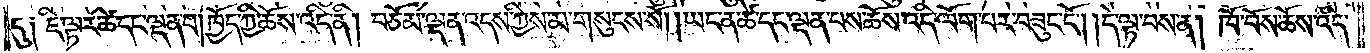དུ༑ ཇི་ལྟར་ཚེ་དང་ལྡན་པ། ཁྱོད་ཀྱི་ཆོས་འདི་ནི། བཅོམ་ལྡན་འདས་ཀྱིས་མ་གསུངས་སོ། །ཡང་ན་ཚེ་དང་ལྡན་པས་ཆོས་འདི་ལོག་པར་བཟུང་ངོ༌། །དེ་ལྟ་བས་ན། ཁོ་བོས་ཆོས་འདི་
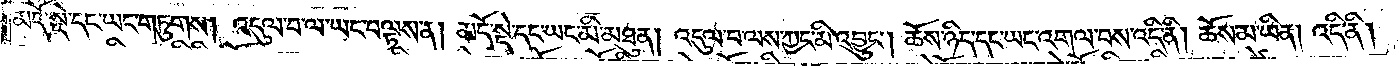མདོ་སྡེ་དང་ཡང་གཏུགས། འདུལ་བ་ལ་ཡང་བལྟས་ན། མདོ་སྡེ་དང་ཡང་མི་མཐུན། འདུལ་བ་ལས་ཀྱང་མི་འབྱུང༌། ཆོས་ཉིད་དང་ཡང་འགལ་བས་འདི་ནི། ཆོས་མ་ཡིན། འདི་ནི།
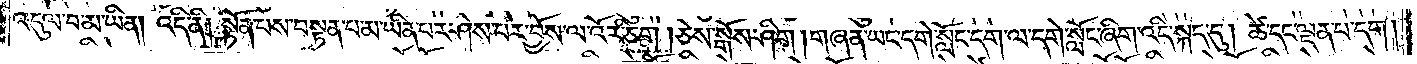འདུལ་བ་མ་ཡིན། འདི་ནི། སྟོན་པས་བསྟན་པ་མ་ཡིན་པར་ཤེས་པར་བྱོས་ལ་འོར་ཅིག །ཅེས་སྒོས་ཤིག །གཞན་ཡང་དགེ་སློང་དག་ལ་དགེ་སློང་ཞིག་འདི་སྐད་དུ། ཚེ་དང་ལྡན་པ་དག།
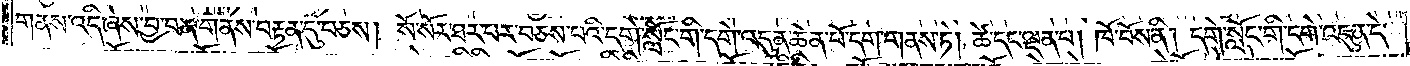གནས་འདི་ཞེས་བྱ་བ་ན་གནས་བརྟན་དུ་བཅས། སོ་སོར་ཐར་པར་བཅས་པའི་དགེ་སློང་གི་དགེ་འདུན་ཆེན་པོ་དག་གནས་ཏེ། ཚེ་དང་ལྡན་པ། ཁོ་བོས་ནི། དགེ་སློང་གི་དགེ་འདུན་དེ་
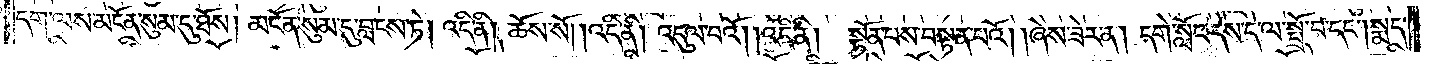དག་ལས་མངོན་སུམ་དུ་ཐོས། མངོན་སུམ་དུ་བླངས་ཏེ། འདི་ནི། ཆོས་སོ། །འདི་ནི། འདུལ་བའོ། །འདི་ནི། སྟོན་པས་བསྟན་པའོ། །ཞེས་ཟེར་ན། དགེ་སློང་དེས་དེ་ལ་སྤྲོ་བ་དང༌། སྨད་
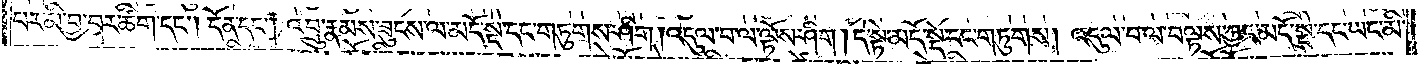པར་མི་བྱ་བར་ཚིག་དང༌། དོན་དང༌། འབྲུ་རྣམས་ཟུངས་ལ་མདོ་སྡེ་དང་གཏུགས་ཤིག །འདུལ་བ་ལ་ལྟོས་ཤིག། དེ་སྟེ་མདོ་སྡེ་དང་གཏུགས། འདུལ་བ་ལ་བལྟས་ཀྱང་མདོ་སྡེ་དང་ཡང་མི་
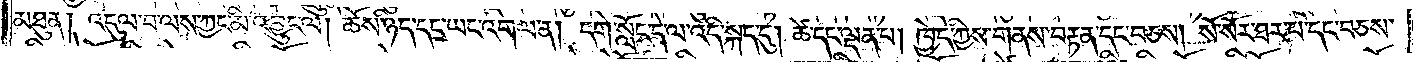མཐུན། འདུལ་བ་ལས་ཀྱང་མི་འབྱུང་ལ། ཆོས་ཉིད་དང་ཡང་འགལ་ན། དགེ་སློང་དེ་ལ་འདི་སྐད་དུ། ཚེ་དང་ལྡན་པ། ཁྱེད་ཀྱིས་གནས་བརྟན་དང་བཅས། སོ་སོར་ཐར་པ་དང་བཅས་
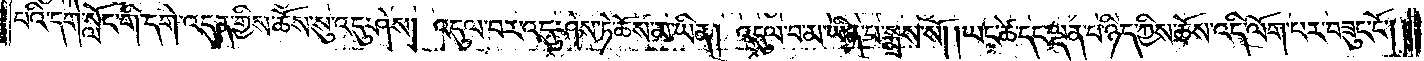པའི་དགེ་སློང་གི་དགེ་འདུན་གྱིས་ཆོས་སུ་འདུ་ཤེས། འདུལ་བར་འདུ་ཤེས་ཏེ་ཆོས་མ་ཡིན། འདུལ་བ་མ་ཡིན་པ་སྨྲས་སོ། །ཡང་ཚེ་དང་ལྡན་པ་ཉིད་ཀྱིས་ཆོས་འདི་ལོག་པར་བཟུང་ངོ༌། །
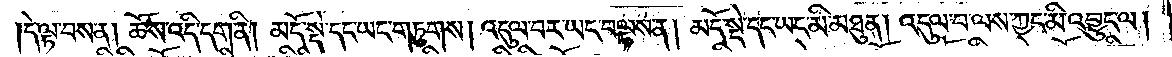དེ་ལྟ་བས་ན། ཆོས་འདི་དག་ནི། མདོ་སྡེ་དང་ཡང་གཏུགས། འདུལ་བར་ཡང་བལྟས་ན། མདོ་སྡེ་དང་ཡང་མི་མཐུན། འདུལ་བ་ལས་ཀྱང་མི་འབྱུང་ལ།
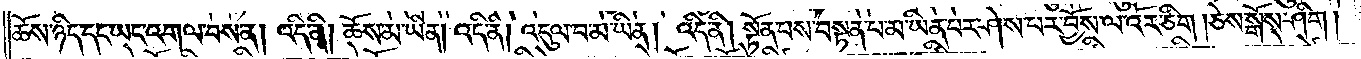ཆོས་ཉིད་དང་ཡང་འགལ་བས་ན། འདི་ནི། ཆོས་མ་ཡིན། འདི་ནི། འདུལ་བ་མ་ཡིན། འདི་ནི། སྟོན་པས་བསྟན་པས་བསྟན་པ་མ་ཡིན་པར་ཤེས་པར་བྱོས་ལ་འོར་ཅིག །ཅེས་སྒོས་ཤིག།
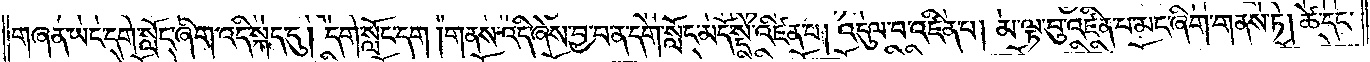གཞན་ཡང་དགེ་སློང་ཞིག་འདི་སྐད་དུ། དགེ་སློང་དག །གནས་འདི་ཞེས་བྱ་བ་ན་དགེ་སློང་མདོ་སྡེ་འཛིན་པ། འདུལ་བ་འཛིན་པ། མ་ལྟ་བུ་འཛིན་པ་མང་ཞིག་གནས་ཏེ། ཚེ་དང་
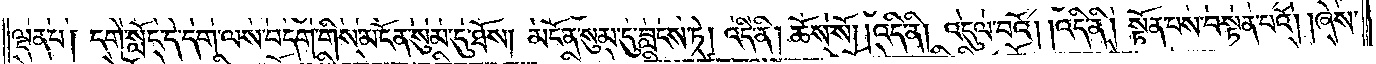ལྡན་པ། དགེ་སློང་དེ་དག་ལས་བདག་གིས་མངོན་སུམ་དུ་ཐོས། མངོན་སུམ་དུ་བླངས་ཏེ། འདི་ནི། ཆོས་སོ། །འདི་ནི། འདུལ་བའོ། །འདི་ནི། སྟོན་པས་བསྟན་པའོ། །ཞེས་
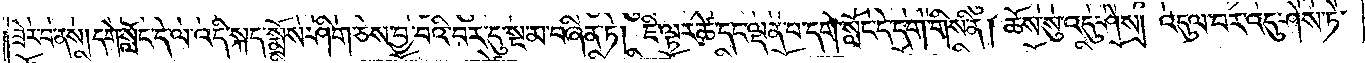ཟེར་བ་ནས། དགེ་སློང་དེ་ལ་འདི་སྐད་སྨྲོས་ཤིག་ཅེས་བྱ་བའི་བར་དུ་སྔ་མ་བཞིན་ཏེ། ཇི་ལྟར་ཚེ་དང་ལྡན་པ་དགེ་སློང་དེ་དག་གིས་ནི། ཆོས་སུ་འདུ་ཤེས། འདུལ་བར་འདུ་ཤེས་ཏེ་
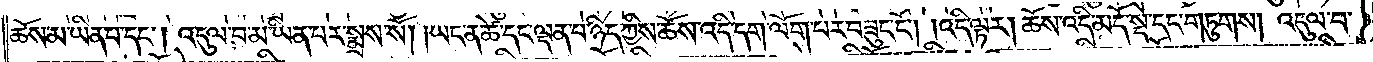ཆོས་མ་ཡིན་པ་དང༌། འདུལ་བ་མ་ཡིན་པར་སྨྲས་སོ། །ཡང་ན་ཚེ་དང་ལྡན་པ་ཉིད་ཀྱིས་ཆོས་འདི་དག་ལོག་པར་བཟུང་ངོ༌། །འདི་ལྟར། ཆོས་འདི་མདོ་སྡེ་དང་གཏུགས། འདུལ་བ་
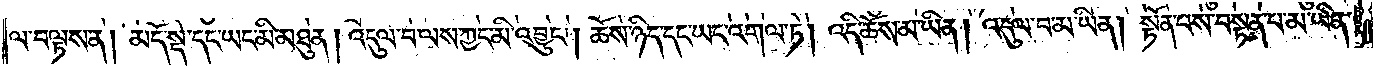ལ་བལྟས་ན། མདོ་སྡེ་དང་ཡང་མི་མཐུན། འདུལ་བ་ལས་ཀྱང་མི་འབྱུང༌། ཆོས་ཉིད་དང་ཡང་འགལ་ཏེ། འདི་ཆོས་མ་ཡིན། འདུལ་བ་མ་ཡིན། སྟོན་པས་བསྟན་པ་མ་ཡིན་
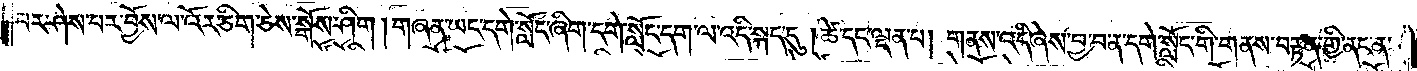པར་ཤེས་པར་བྱོས་ལ་འོར་ཅིག་ཅེས་སྒོས་ཤིག། གཞན་ཡང་དགེ་སློང་ཞིག་དགེ་སློང་དག་ལ་འདི་སྐད་དུ། ཚེ་དང་ལྡན་པ། གནས་འདི་ཞེས་བྱ་བ་ན་དགེ་སློང་གི་གནས་བརྟན་གྱི་ནང་ན་
